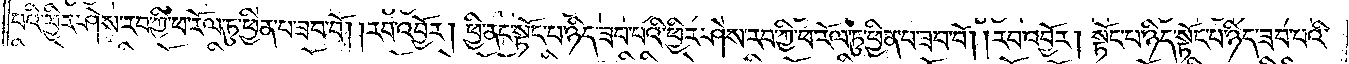པའི་ཕྱིར་ཤེས་རབ་ཀྱི་ཕ་རོལ་ཏུ་ཕྱིན་པ་ཟབ་བོ། །རབ་འབྱོར། ཕྱི་ནང་སྟོང་པ་ཉིད་ཟབ་པའི་ཕྱིར་ཤེས་རབ་ཀྱི་ཕ་རོལ་ཏུ་ཕྱིན་པ་ཟབ་བོ། །རབ་འབྱོར། སྟོང་པ་ཉིད་སྟོང་པ་ཉིད་ཟབ་པའི་
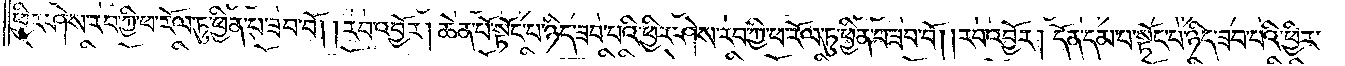ཕྱིར་ཤེས་རབ་ཀྱི་ཕ་རོལ་ཏུ་ཕྱིན་པ་ཟབ་བོ། །རབ་འབྱོར། ཆེན་པོ་སྟོང་པ་ཉིད་ཟབ་པའི་ཕྱིར་ཤེས་རབ་ཀྱི་ཕ་རོལ་ཏུ་ཕྱིན་པ་ཟབ་བོ། །རབ་འབྱོར། དོན་དམ་པ་སྟོང་པ་ཉིད་ཟབ་པའི་ཕྱིར་
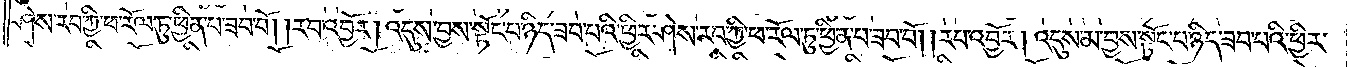ཤེས་རབ་ཀྱི་ཕ་རོལ་ཏུ་ཕྱིན་པ་ཟབ་བོ། །རབ་འབྱོར། འདུས་བྱས་སྟོང་པ་ཉིད་ཟབ་པའི་ཕྱིར་ཤེས་རབ་ཀྱི་ཕ་རོལ་ཏུ་ཕྱིན་པ་ཟབ་བོ། །རབ་འབྱོར། འདུས་མ་བྱས་སྟོང་པ་ཉིད་ཟབ་པའི་ཕྱིར་
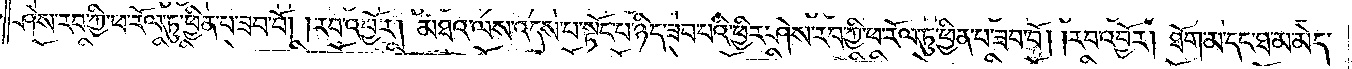ཤེས་རབ་ཀྱི་ཕ་རོལ་ཏུ་ཕྱིན་པ་ཟབ་བོ། །རབ་འབྱོར། མཐའ་ལས་འདས་པ་སྟོང་པ་ཉིད་ཟབ་པའི་ཕྱིར་ཤེས་རབ་ཀྱི་ཕ་རོལ་ཏུ་ཕྱིན་པ་ཟབ་བོ། །རབ་འབྱོར། ཐོག་མ་དང་ཐ་མ་མེད་
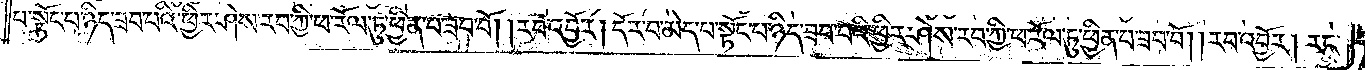པ་སྟོང་པ་ཉིད་ཟབ་པའི་ཕྱིར་ཤེས་རབ་ཀྱི་ཕ་རོལ་ཏུ་ཕྱིན་པ་ཟབ་བོ། །རབ་འབྱོར། དོར་བ་མེད་པ་སྟོང་པ་ཉིད་ཟབ་པའི་ཕྱིར་ཤེས་རབ་ཀྱི་ཕ་རོལ་ཏུ་ཕྱིན་པ་ཟབ་བོ། །རབ་འབྱོར། རང་
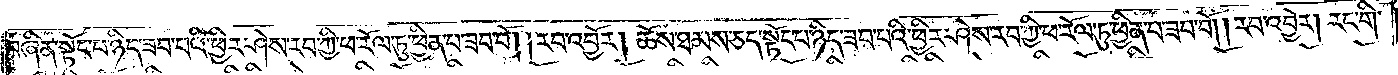བཞིན་སྟོང་པ་ཉིད་ཟབ་པའི་ཕྱིར་ཤེས་རབ་ཀྱི་ཕ་རོལ་ཏུ་ཕྱིན་པ་ཟབ་བོ། །རབ་འབྱོར། ཆོས་ཐམས་ཅད་སྟོང་པ་ཉིད་ཟབ་པའི་ཕྱིར་ཤེས་རབ་ཀྱི་ཕ་རོལ་ཏུ་ཕྱིན་པ་ཟབ་བོ། །རབ་འབྱོར། རང་གི་
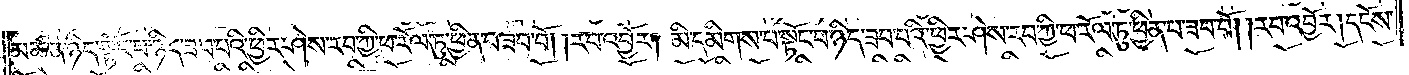མཚན་ཉིད་སྟོང་པ་ཉིད་ཟབ་པའི་ཕྱིར་ཤེས་རབ་ཀྱི་ཕ་རོལ་ཏུ་ཕྱིན་པ་ཟབ་བོ། །རབ་འབྱོར། མི་དམིགས་པ་སྟོང་པ་ཉིད་ཟབ་པའི་ཕྱིར་ཤེས་རབ་ཀྱི་ཕ་རོལ་ཏུ་ཕྱིན་པ་ཟབ་བོ། །རབ་འབྱོར། དངོས་
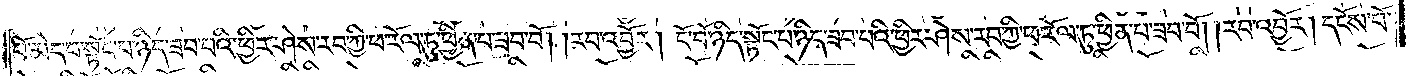པོ་མེད་པ་སྟོང་པ་ཉིད་ཟབ་པའི་ཕྱིར་ཤེས་རབ་ཀྱི་ཕ་རོལ་ཏུ་ཕྱིན་པ་ཟབ་བོ། །རབ་འབྱོར། ངོ་བོ་ཉིད་སྟོང་པ་ཉིད་ཟབ་པའི་ཕྱིར་ཤེས་རབ་ཀྱི་ཕ་རོལ་ཏུ་ཕྱིན་པ་ཟབ་བོ། །རབ་འབྱོར། དངོས་པོ་
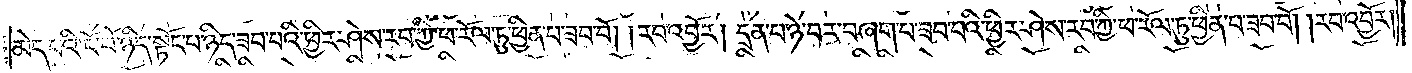མེད་པའི་ངོ་བོ་ཉིད་སྟོང་པ་ཉིད་ཟབ་པའི་ཕྱིར་ཤེས་རབ་ཀྱི་ཕ་རོལ་ཏུ་ཕྱིན་པ་ཟབ་བོ། །རབ་འབྱོར། དྲན་པ་ཉེ་བར་བཞག་པ་ཟབ་པའི་ཕྱིར་ཤེས་རབ་ཀྱི་ཕ་རོལ་ཏུ་ཕྱིན་པ་ཟབ་བོ། །རབ་འབྱོར།
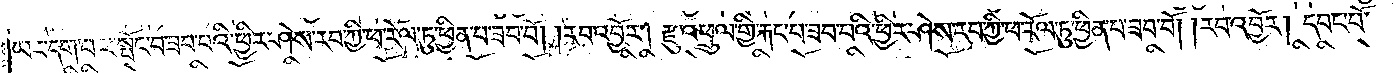ཡང་དག་པར་སྤོང་བ་ཟབ་པའི་ཕྱིར་ཤེས་རབ་ཀྱི་ཕ་རོལ་ཏུ་ཕྱིན་པ་ཟབ་བོ། །རབ་འབྱོར། རྫུ་འཕྲུལ་གྱི་རྐང་པ་ཟབ་པའི་ཕྱིར་ཤེས་རབ་ཀྱི་ཕ་རོལ་ཏུ་ཕྱིན་པ་ཟབ་བོ། །རབ་འབྱོར། དབང་པོ་
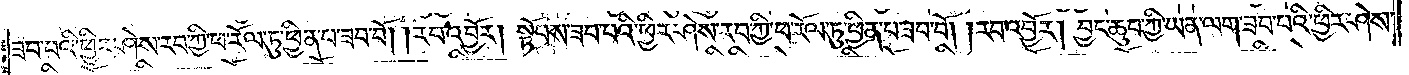ཟབ་པའི་ཕྱིར་ཤེས་རབ་ཀྱི་ཕ་རོལ་ཏུ་ཕྱིན་པ་ཟབ་བོ། །རབ་འབྱོར། སྟོབས་ཟབ་པའི་ཕྱིར་ཤེས་རབ་ཀྱི་ཕ་རོལ་ཏུ་ཕྱིན་པ་ཟབ་བོ། །རབ་འབྱོར། བྱང་ཆུབ་ཀྱི་ཡན་ལག་ཟབ་པའི་ཕྱིར་ཤེས་
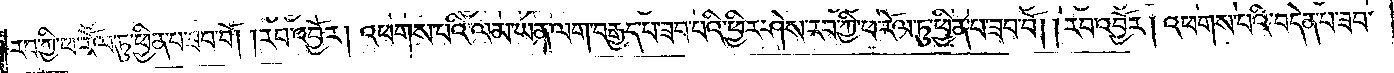རབ་ཀྱི་ཕ་རོལ་ཏུ་ཕྱིན་པ་ཟབ་བོ། །རབ་འབྱོར། འཕགས་པའི་ལམ་ཡན་ལག་བརྒྱད་པ་ཟབ་པའི་ཕྱིར་ཤེས་རབ་ཀྱི་ཕ་རོལ་ཏུ་ཕྱིན་པ་ཟབ་བོ། །རབ་འབྱོར། འཕགས་པའི་བདེན་པ་ཟབ་
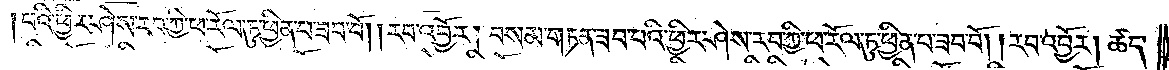པའི་ཕྱིར་ཤེས་རབ་ཀྱི་ཕ་རོལ་ཏུ་ཕྱིན་པ་ཟབ་བོ། །རབ་འབྱོར། བསམ་གཏན་ཟབ་པའི་ཕྱིར་ཤེས་རབ་ཀྱི་ཕ་རོལ་ཏུ་ཕྱིན་པ་ཟབ་བོ། །རབ་འབྱོར། ཚད་
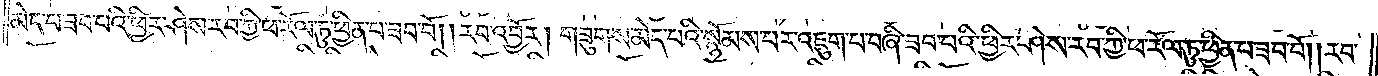མེད་པ་ཟབ་པའི་ཕྱིར་ཤེས་རབ་ཀྱི་ཕ་རོལ་ཏུ་ཕྱིན་པ་ཟབ་བོ། །རབ་འབྱོར། གཟུགས་མེད་པའི་སྙོམས་པར་འཇུག་པ་བཞི་ཟབ་པའི་ཕྱིར་ཤེས་རབ་ཀྱི་ཕ་རོལ་ཏུ་ཕྱིན་པ་ཟབ་བོ། །རབ་
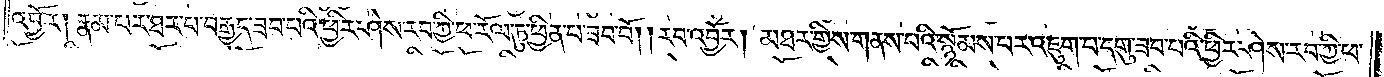འབྱོར། རྣམ་པར་ཐར་བ་བརྒྱད་ཟབ་པའི་ཕྱིར་ཤེས་རབ་ཀྱི་ཕ་རོལ་ཏུ་ཕྱིན་པ་ཟབ་བོ། །རབ་འབྱོར། མཐར་གྱིས་གནས་པའི་སྙོམས་པར་འཇུག་པ་དགུ་ཟབ་པའི་ཕྱིར་ཤེས་རབ་ཀྱི་ཕ་
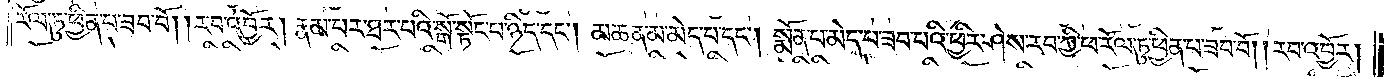རོལ་ཏུ་ཕྱིན་པ་ཟབ་བོ། །རབ་འབྱོར། རྣམ་པར་ཐར་པའི་སྒོ་སྟོང་པ་ཉིད་དང༌། མཚན་མ་མེད་པ་དང༌། སྨོན་པ་མེད་པ་ཟབ་པའི་ཕྱིར་ཤེས་རབ་ཀྱི་ཕ་རོལ་ཏུ་ཕྱིན་པ་ཟབ་བོ། །རབ་འབྱོར།
